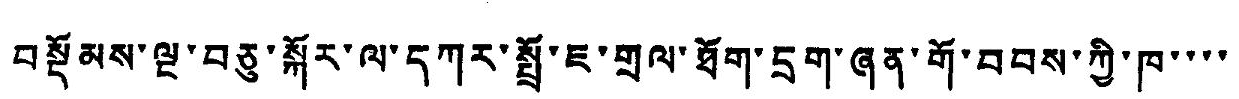བསྡོམས་ལྔ་བཅུ་སྐོར་ལ་དཀར་སྤྲོ་ཇ་གྲལ་ཐོག་དྲག་ཞན་གོ་བབས་ཀྱི་ཁ་་་་
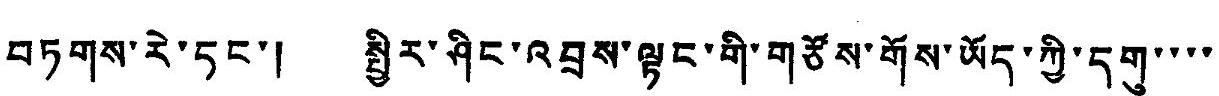བཏགས་རེ་ཏང་། སྤྱིར་ཤིང་འབྲས་ལྟང་གི་གཙོས་གོས་ཡོད་ཀྱི་དགུ་་་་
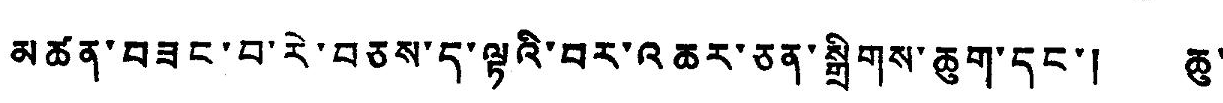མཚན་བཟང་བ་རེ་བཅས་ད་ལྟའི་བར་འཆར་ཅན་སྒྲིགས་ཆུག་དང་། ཆུ་
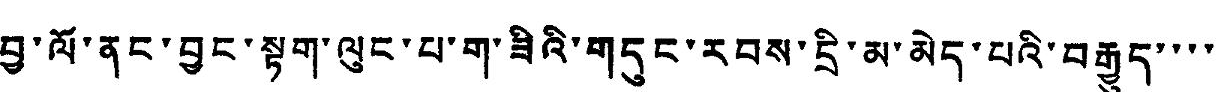བྱ་ལོ་ནང་བྱང་སྟག་ལུང་པ་ག་ཟིའི་གདུང་རབས་དྲི་མ་མེད་པའི་བརྒྱུད་་་་
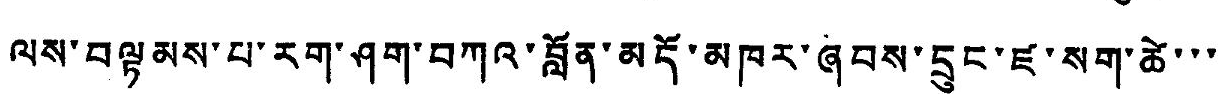ལས་བལྟམས་པ་རག་ཤག་བཀའ་བློན་མདོ་མཁར་ཞབས་དྲུང་ཛ་སག་ཚེ་་་
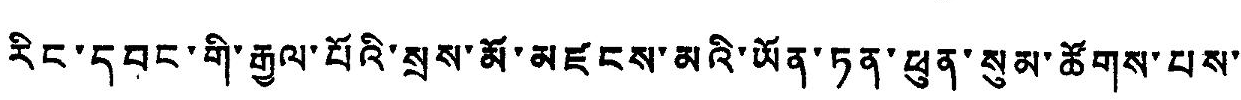རིང་དབང་གི་རྒྱལ་པོའི་སྲས་མོ་མཛངས་མའི་ཡོན་ཏན་ཕུན་སུམ་ཚོགས་པས་
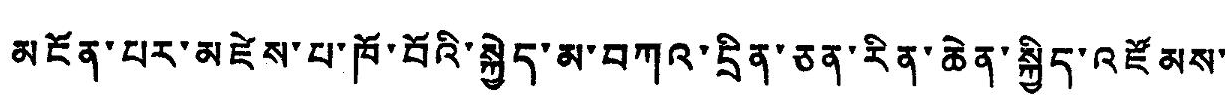མངོན་པར་མཛེས་པ་ཁོ་བོའི་སྐྱེད་མ་བཀའ་དྲིན་ཅན་རིན་ཆེན་སྐྱིད་འཛོམས་
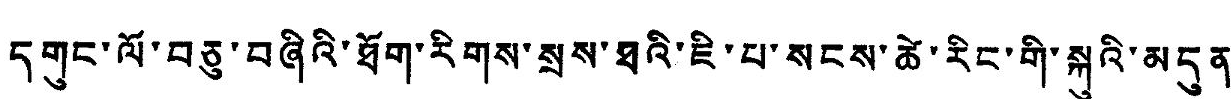དགུང་ལོ་བཅུ་བཞིའི་ཐོག་རིགས་སྲས་ཐའི་ཇི་པ་སངས་ཚེ་རིང་གི་སྐུའི་མདུན་
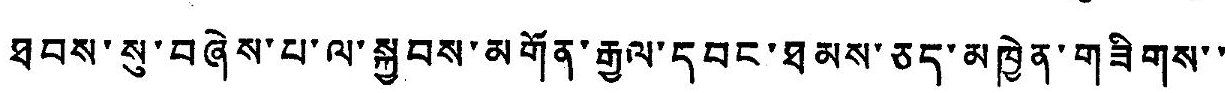ཐབས་སུ་བཞེས་པ་ལ་སྐྱབས་མགོན་རྒྱལ་དབང་ཐམས་ཅད་མཁྱེན་གཟིགས་་
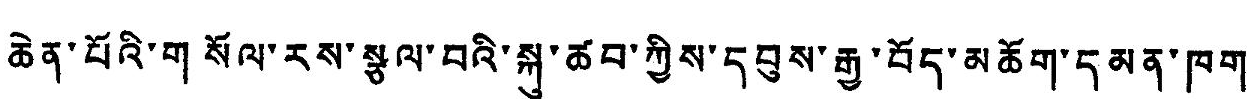ཆེན་པོའི་གསོལ་རས་སྩལ་བའི་སྐུ་ཚབ་ཀྱིས་དབུས་རྒྱ་བོད་མཆོག་དམན་ཁག་
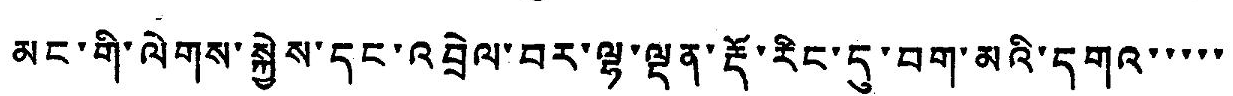མང་གི་ལེགས་སྐྱེས་དང་འབྲེལ་བར་ལྷ་ལྡན་རྡོ་རིང་དུ་བག་མའི་དགའ་་་་་
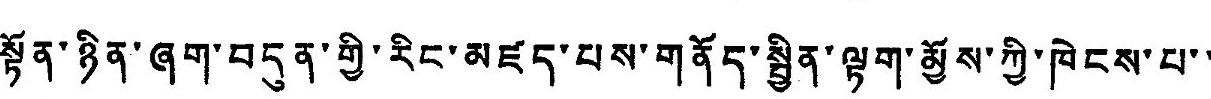སྟོན་ཉིན་ཞག་བདུན་གྱི་རིང་མཛད་པས་གནོད་སྦྱིན་ལྟག་མྱོས་ཀྱི་ཁེངས་པ་་
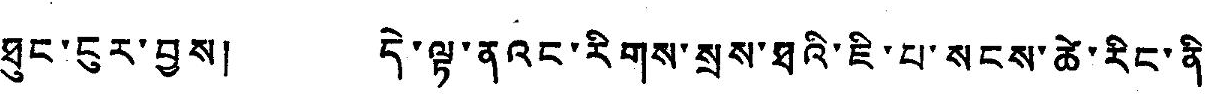ཐུང་ངུར་བྱས། དེ་ལྟར་ནའང་རིགས་སྲས་ཐའི་ཇི་པ་སངས་ཚེ་རིང་ནི་
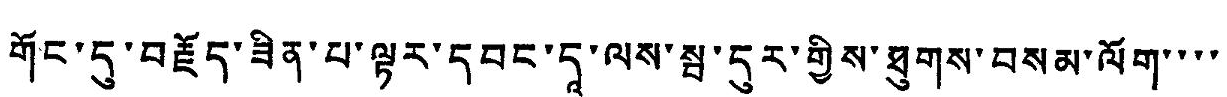གོང་དུ་བརྗོད་ཟིན་པ་ལྟར་དབང་དའ་ལས་སྦ་དུར་གྱིས་ཐུགས་བསམ་ལོག་་་་
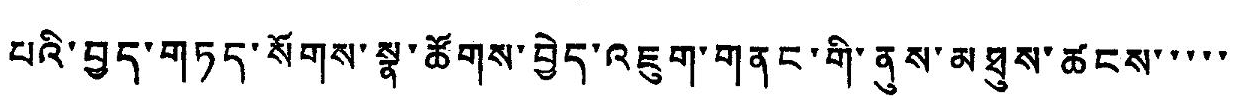པའི་བྱད་གཏད་སོགས་སྣ་ཚོགས་བྱེད་འཇུག་གནང་གི་ནུས་མཐུས་ཚངས་་་་་
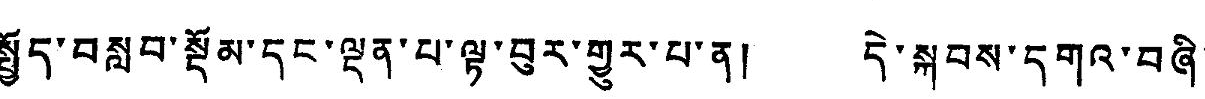སྤྱོད་བསླབ་སྡོམ་དང་ལྡན་པ་ལྟ་བུར་གྱུར་པ་ན། དེ་སྐབས་དགའ་བཞི་
